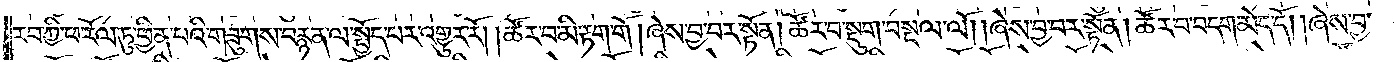རབ་ཀྱི་ཕ་རོལ་ཏུ་ཕྱིན་པའི་གཟུགས་བརྙན་ལ་སྤྱོད་པར་འགྱུར་རོ། །ཚོར་བ་མི་རྟག་གོ། ཞེས་བྱ་བར་སྟོན། ཚོར་བ་སྡུག་བསྔལ་ལོ། །ཞེས་བྱ་བར་སྟོན། ཚོར་བ་བདག་མེད་དོ། །ཞེས་བྱ་
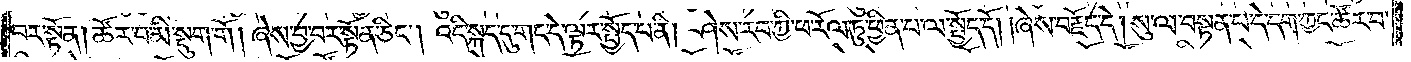བར་སྟོན། ཚོར་བ་མི་སྡུག་གོ། ཞེས་བྱ་བར་སྟོན་ཅིང༌། འདི་སྐད་དུ་གང་དེ་ལྟར་སྤྱོད་པ་ནི། ཤེས་རབ་ཀྱི་ཕ་རོལ་ཏུ་ཕྱིན་པ་ལ་སྤྱོད་དོ། །ཞེས་བརྗོད་དེ། སུ་ལ་བསྟན་པ་དེ་དག་ཀྱང་ཚོར་བ་
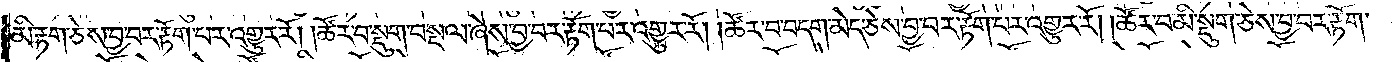མི་རྟག་ཅེས་བྱ་བར་རྟོག་པར་འགྱུར་རོ། །ཚོར་བ་སྡུག་བསྔལ་ཞེས་བྱ་བར་རྟོག་པར་འགྱུར་རོ། །ཚོར་བ་བདག་མེད་ཅེས་བྱ་བར་རྟོག་པར་འགྱུར་རོ། །ཚོར་བ་མི་སྡུག་ཅེས་བྱ་བར་རྟོག་
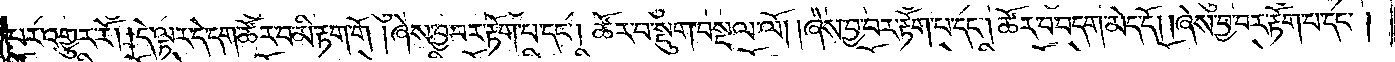པར་འགྱུར་རོ། །དེ་ལྟར་དེ་དག་ཚོར་བ་མི་རྟག་གོ། ཞེས་བྱ་བར་རྟོག་པ་དང༌། ཚོར་བ་སྡུག་བསྔལ་ལོ། །ཞེས་བྱ་བར་རྟོག་པ་དང༌། ཚོར་བ་བདག་མེད་དོ། །ཞེས་བྱ་བར་རྟོག་པ་དང༌།
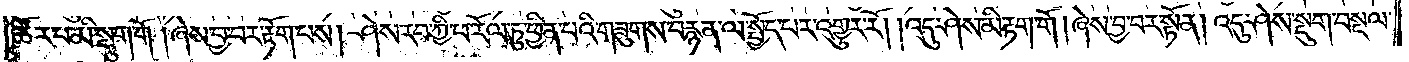ཚོར་བ་མི་སྡུག་གོ། ཞེས་བྱ་བར་རྟོག་པས། ཤེས་རབ་ཀྱི་ཕ་རོལ་ཏུ་ཕྱིན་པའི་གཟུགས་བརྙན་ལ་སྤྱོད་པར་འགྱུར་རོ། །འདུ་ཤེས་མི་རྟག་གོ། ཞེས་བྱ་བར་སྟོན། འདུ་ཤེས་སྡུག་བསྔལ་
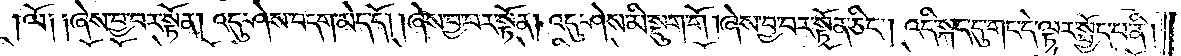ལོ༑ ༑ཞེས་བྱ་བར་སྟོན། འདུ་ཤེས་བདག་མེད་དོ། །ཞེས་བྱ་བར་སྟོན། འདུ་ཤེས་མི་སྡུག་གོ། ཞེས་བྱ་བར་སྟོན་ཅིང༌། འདི་སྐད་དུ་གང་དེ་ལྟར་སྤྱོད་པ་ནི།
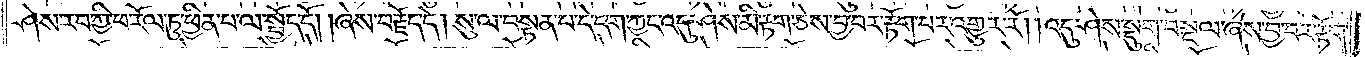ཤེས་རབ་ཀྱི་ཕ་རོལ་ཏུ་ཕྱིན་པ་ལ་སྤྱོད་དོ། །ཞེས་བརྗོད་དེ། སུ་ལ་བསྟན་པ་དེ་དག་ཀྱང་འདུ་ཤེས་མི་རྟག་ཅེས་བྱ་བར་རྟོག་པར་འགྱུར་རོ། །འདུ་ཤེས་སྡུག་བསྔལ་ཞེས་བྱ་བར་རྟོག་
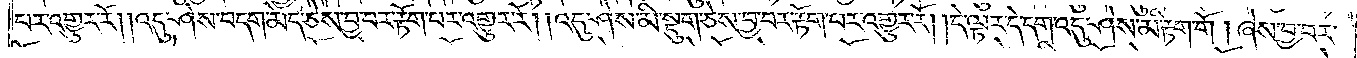པར་འགྱུར་རོ། །འདུ་ཤེས་བདག་མེད་ཅེས་བྱ་བར་རྟོག་པར་འགྱུར་རོ། །འདུ་ཤེས་མི་སྡུག་ཅེས་བྱ་བར་རྟོག་པར་འགྱུར་རོ། །དེ་ལྟར་དེ་དག་འདུ་ཤེས་མི་རྟག་གོ། ཞེས་བྱ་བར་
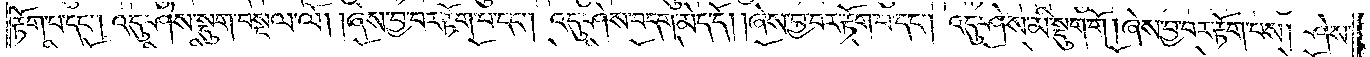རྟོག་པ་དང༌། འདུ་ཤེས་སྡུག་བསྔལ་ལོ། །ཞེས་བྱ་བར་རྟོག་པ་དང༌། འདུ་ཤེས་བདག་མེད་དོ། །ཞེས་བྱ་བར་རྟོག་པ་དང༌། འདུ་ཤེས་མི་སྡུག་གོ། ཞེས་བྱ་བར་རྟོག་པས། ཤེས་
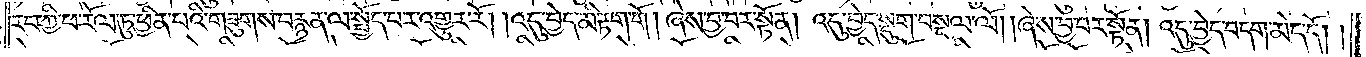རབ་ཀྱི་ཕ་རོལ་ཏུ་ཕྱིན་པའི་གཟུགས་བརྙན་ལ་སྤྱོད་པར་འགྱུར་རོ། །འདུ་བྱེད་མི་རྟག་གོ། ཞེས་བྱ་བར་སྟོན། འདུ་བྱེད་སྡུག་བསྔལ་ལོ། །ཞེས་བྱ་བར་སྟོན། འདུ་བྱེད་བདག་མེད་དོ༎
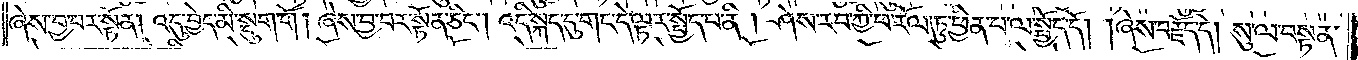ཞེས་བྱ་བར་སྟོན། འདུ་བྱེད་མི་སྡུག་གོ། ཞེས་བྱ་བར་སྟོན་ཅིང༌། འདི་སྐད་དུ་གང་དེ་ལྟར་སྤྱོད་པ་ནི། ཤེས་རབ་ཀྱི་ཕ་རོལ་ཏུ་ཕྱིན་པ་ལ་སྤྱོད་དོ། །ཞེས་བརྗོད་དེ། སུ་ལ་བསྟན་
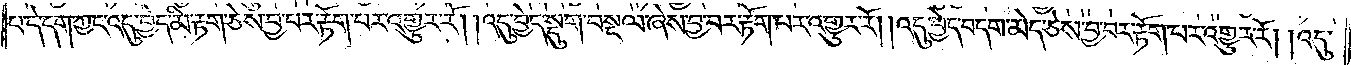པ་དེ་དག་ཀྱང་འདུ་བྱེད་མི་རྟག་ཅེས་བྱ་བར་རྟོག་པར་འགྱུར་རོ། །འདུ་བྱེད་སྡུག་བསྔལ་ཞེས་བྱ་བར་རྟོག་པར་འགྱུར་རོ། །འདུ་བྱེད་བདག་མེད་ཅེས་བྱ་བར་རྟོག་པར་འགྱུར་རོ། །འདུ་
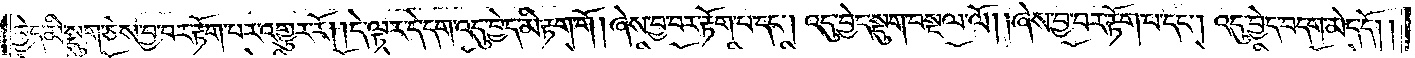བྱེད་མི་སྡུག་ཅེས་བྱ་བར་རྟོག་པར་འགྱུར་རོ། །དེ་ལྟར་དེ་དག་འདུ་བྱེད་མི་རྟག་གོ། ཞེས་བྱ་བར་རྟོག་པ་དང༌། འདུ་བྱེད་སྡུག་བསྔལ་ལོ། །ཞེས་བྱ་བར་རྟོག་པ་དང༌། འདུ་བྱེད་བདག་མེད་དོ༎
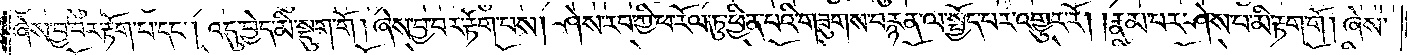ཞེས་བྱ་བར་རྟོག་པ་དང༌། འདུ་བྱེད་མི་སྡུག་གོ། ཞེས་བྱ་བར་རྟོག་པས། ཤེས་རབ་ཀྱི་ཕ་རོལ་ཏུ་ཕྱིན་པའི་གཟུགས་བརྙན་ལ་སྤྱོད་པར་འགྱུར་རོ། །རྣམ་པར་ཤེས་པ་མི་རྟག་གོ། ཞེས་
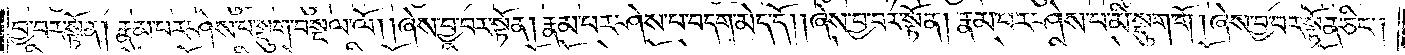བྱ་བར་སྟོན། རྣམ་པར་ཤེས་པ་སྡུག་བསྔལ་ལོ། །ཞེས་བྱ་བར་སྟོན། རྣམ་པར་ཤེས་པ་བདག་མེད་དོ། །ཞེས་བྱ་བར་སྟོན། རྣམ་པར་ཤེས་པ་མི་སྡུག་གོ། ཞེས་བྱ་བར་སྟོན་ཅིང༌།
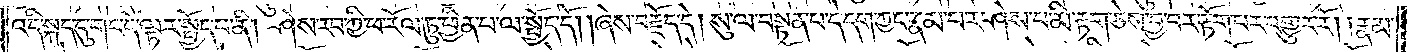འདི་སྐད་དུ་གང་དེ་ལྟར་སྤྱོད་པ་ནི། ཤེས་རབ་ཀྱི་ཕ་རོལ་ཏུ་ཕྱིན་པ་ལ་སྤྱོད་དོ། །ཞེས་བརྗོད་དེ། སུ་ལ་བསྟན་པ་དེ་དག་ཀྱང་རྣམ་པར་ཤེས་པ་མི་རྟག་ཅེས་བྱ་བར་རྟོག་པར་འགྱུར་རོ། །རྣམ་
